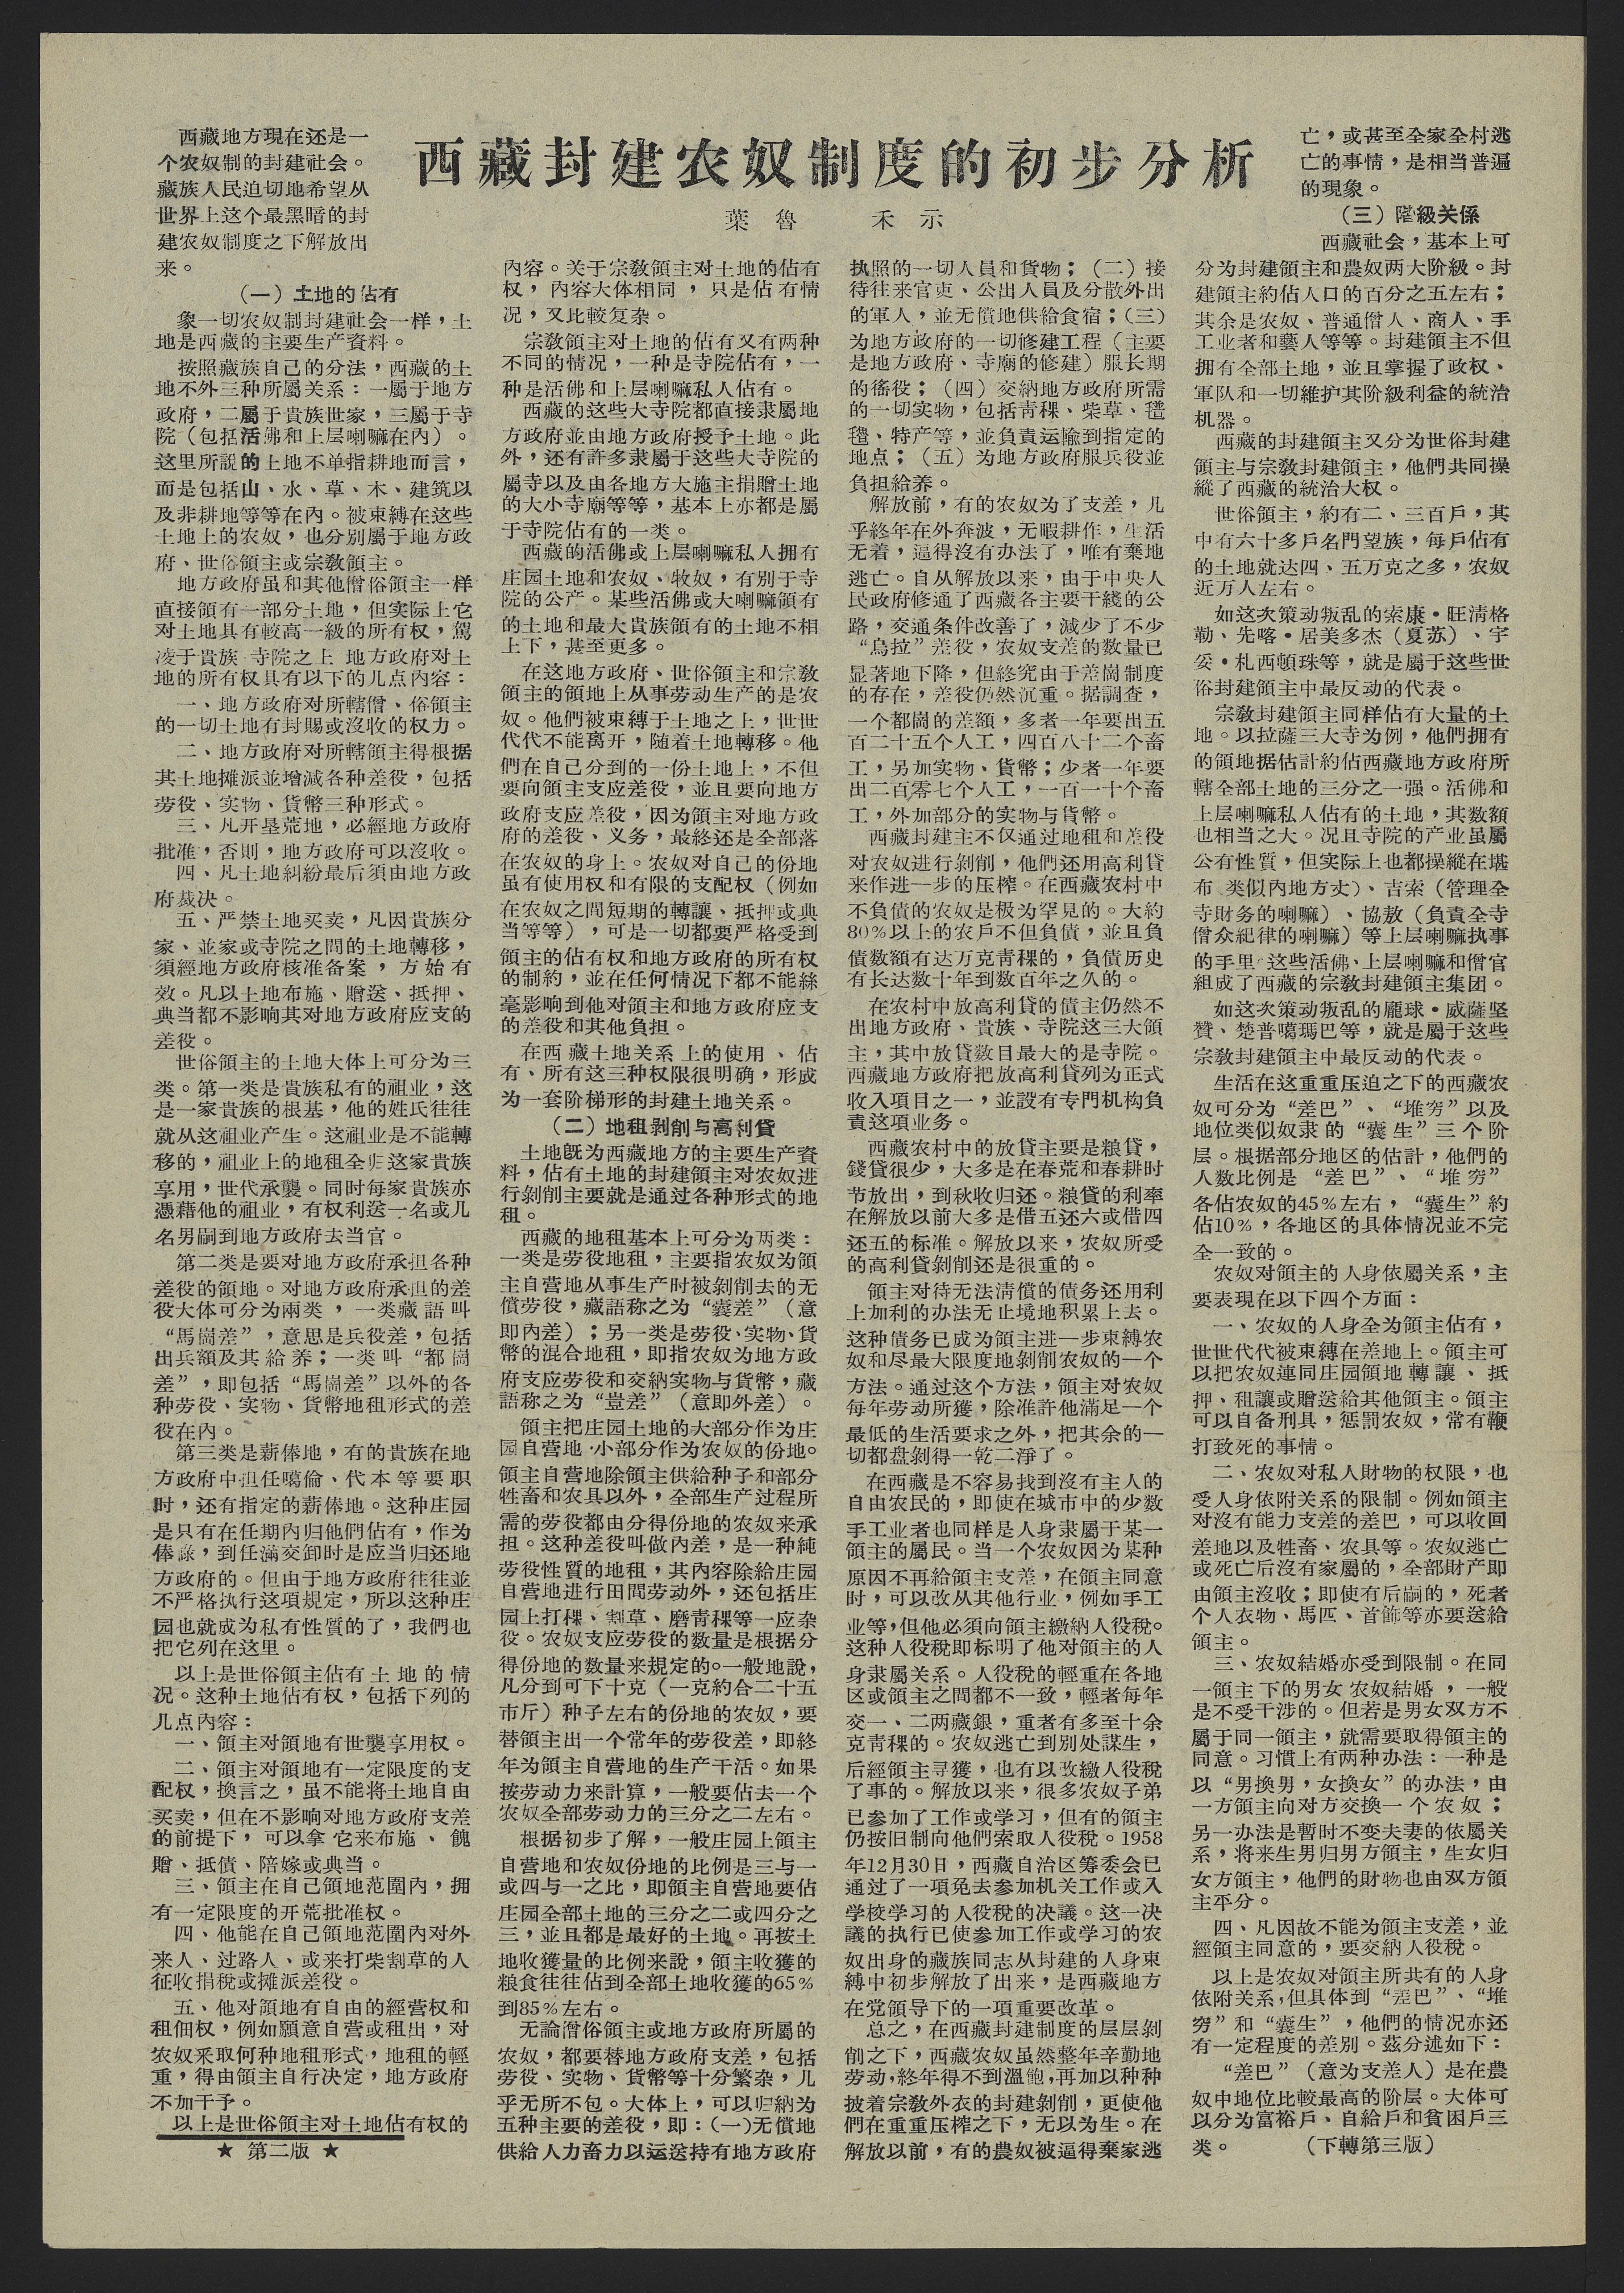西藏封建农奴制度的初步分析
葉魯 禾示
西藏地方現在还是一
个农奴制的封建社会。
藏族人民破切地希望从
世界上这个最黑暗的封
建农奴制度之下解放出
来。
（一）土地的佔有
象一切农奴制封建社会一样，土
地是西藏的主要生产資料。
按照藏族自己的分法，西藏的土
地不外三种所屬关系：一屬于地方
政府，二屬于貴族世家，三屬于寺
院（包括活佛和上层喇嘛在内）。
这里所說的土地不单指耕地而言，
而是包括山、水、草、木、建筑以
及非耕地等等在内。被束縛在这些
土地上的农奴，也分别屬于地方政
府、世俗領主或宗敎領主。
地方政府虽和其他僧俗領主一样
直接領有一部分土地，但实际上它
对土地具有較高一級的所有权，駕
凌于貴族寺院之上地方政府对土
地的所有权具有以下的几点内容：
一、地方政府对所轄僧、俗領主
的一切土地有封賜或沒收的权力。
二、地方政府对所轄領主得根据
其土地摊派並增減各种差役，包括
劳役、实物、貨幣三种形式。
三、凡开垦荒地，必經地方政府
批准，否則，地方政府可以沒收。
四、凡土地糾紛最后須由地方政
府裁决。
五、严禁土地买卖，凡因貴族分
家、並家或寺院之間的土地轉移，
須經地方政府核准备案，方始有
效。凡以土地布施、贈送、抵押、
典当都不影响其对地方政府应支的
差役。
世俗領主的土地大体上可分为三
类。第一类是貴族私有的祖业，这
是一家貴族的根基，他的姓氏往往
就从这祖业产生。这祖业是不能轉
移的，祖业上的地租全归这家貴族
享用，世代承襲。同时每家貴族亦
憑藉他的祖业，有权利送一名或几
名男嗣到地方政府去当官。
第二类是要对地方政府承担各种
差役的領地。对地方政府承担的差
役大体可分为兩类，一类藏語叫
“馬崗差”，意思是兵役差，包括
出兵額及其給养；一类叫“都崗
差”，即包括“馬崗差”以外的各
种劳役、实物、貨幣地租形式的差
役在内。
第三类是薪俸地，有的貴族在地
方政府中担任噶倫、代本等要职
时，还有指定的薪俸地。这种庄园
是只有在任期内归他們佔有，作为
俸祿，到任滿交卸时是应当归还地
方政府的。但由于地方政府往往並
不严格执行这項規定，所以这种庄
园也就成为私有性質的了，我們也
把它列在这里。
以上是世俗領主佔有土地的情
况。这种土地佔有权，包括下列的
几点内容：
一、領主对領地有世襲享用权。
二、領主对領地有一定限度的支
配权，換言之，虽不能将土地自由
买卖，但在不影响对地方政府支差
的前提下，可以拿它来布施、餽
贈、抵債、陪嫁或典当。
三、領主在自己領地范圍內，拥
有一定限度的开荒批准权。
四、他能在自己領地圍內对外
来人、过路人、或来打柴割草的人
征收捐稅或摊派差役。
五、他对領地有自由的經营权和
租佃权，例如願意自营或租出，对
农奴采取何种地租形式，地租的輕
重，得由領主自行决定，地方政府
不加干予。
以上是世俗領主对土地佔有权的
★ 第二版 ★
内容。关于宗敎領主对土地的佔有
权，内容大体相同，只是佔有有情
况，又比較复杂。
宗敎領主对土地的佔有又有两种
不同的情况，一种是寺院佔有，一
种是活佛和上层喇嘛私人佔有。
西藏的这些大寺院都直接屬地
方政府並由地方政府授予土地。此
外，还有許多隶屬于这些大寺院的
屬寺以及由各地方大施主捐贈土地
的大小寺廟等等，基本上亦都是屬
于寺院佔有的一类。
西藏的活佛或上层喇嘛私人拥有
庄园土地和农奴、牧奴，有别于寺
院的共产。某些活佛或大喇嘛領有
的土地和最大貴族領有的土地不相
上下，甚至更多。
在这地方政府、世俗領主和宗敎
領主的領地上从事劳动生产的是农
奴。他們被束縛于土地之上，世世
代代不能离开，随着土地轉移。他
們在自己分到的一份土地上，不但
要向領主支应差役，並且要向地方
政府支应差役，因为領主对地方政
府的差役、义务，最終还是全部落
在农奴的身上。农奴对自己的份地
虽有使用权和有限的支配权（例如
在农奴之間短期的轉讓、抵押或典
当等等），可是一切都要严格受到
領主的佔有权和地方政府的所有权
的制約，並在任何情況下都不能絲
毫影响到他对領主和地方政府应支
的差役和其他負担。
在西藏土地关系上的使用、佔
由、所有这三种权限很明确，形成
为一套阶梯形的封建土地关系。
（二）地租剝削与高利貸
土地旣为西藏地方的主要生产資
料，佔有土地的封建領主对农奴进
行剝削主要就是通过各种形式的地
租。
西藏的地租基本上可分为两类：
一类是劳役地租，主要指农奴为領
主自营地从事生产时被剝削去的无
償劳役，藏語称之为“囊差”（意
即内差）；另一类是劳役、实物、貨
幣的混合地租，即指农奴为地方政
府支应劳役和交納实物与貨幣，藏
語称之为“豈差”（意即外差）。
領主把庄园土地的大部分作为庄
园自营地，小部分作为农奴的份地。
領主自营地除領主供給种子和部分
牲畜和农具以外，全部生产过程所
需的劳役都由分得份地的农奴来承
担。这种差役叫做内差，是一种純
劳役性質的地租，其内容除給庄园
自营地进行田間劳动外，还包括庄
园上打稞、割草、磨靑稞等一应杂
役。农奴支应劳役的数量是根据分
得份地的数量来規定的。一般地說，
凡分到可下十克（一克約合二十五
市斤）种子左右的份地的农奴，要
替領主出一个常年的劳役差，即終
年为領主自营地的生产干活。如果
按劳动力来計算，一般要佔去一个
农奴全部劳动力的三分之二左右。
根据初步了解，一般庄园上領主
自营地和农奴份地的比例是三与一
或四与一之比，即領主自营地要佔
庄园全部土地的三分之二或四分之
三，並且都是最好的土地。再按土
地收穫量的比例来說，領主收穫的
粮食往往佔到全部土地收穫的65％
到85％左右。
無論僧俗領主或地方政府所屬的
农奴，都要替地方政府支差，包括
劳役、实物、貨幣等十分繁杂，几
乎无所不包。大体上，可以归納为
五种主要的差役，即：（一）无償地
供給人力畜力一运送持有地方政府
执照的一切人員和貨物；（二）接
待往来官吏、公出人員及分散外出
的軍人，並无償地供給食宿；（三）
为地方政府的一切修建工程（主要
是地方政府、寺廟的修建）服长期
的徭役；（四）交納地方政府所需
的一切实物，包括靑稞、柴草、氆
氌、特产等，並負責运輸到指定的
地点；（五）为地方政府服兵役並
負担給养。
解放前，有的农奴为了支差，几
乎終年在外奔波，无暇耕作，生活
无着，逼得沒有办法了，唯有棄地
逃亡。自从解放以来，由于中央人
民政府修通了西藏各主要干綫的公
路，交通条件改善了，減少了不少
“烏拉”差役，农奴支差的数量已
显著地下降，但終究由于差崗制度
的存在，差役仍然沉重。据調查，
一个都崗的差額，多者一年要出五
百二十五个人工，四百八十二个畜
工，另加实物、貨幣；少者一年要
出二百零七个人工，一百一十个畜
工，外加部分的实物与貨幣。
西藏封建主不仅通过地租和差役
对农奴进行剝削，他們还用高利貸
来作进一步地压榨。在西藏农村中
不負債的农奴是极为罕見的。大約
80％以上的农户不但負債，並且負
債数額有达万克靑稞的，負債历史
有长达数十年到数百年之久的。
在农村中放高利貸的債主仍然不
出地方政府、貴族、寺院这三大領
主，其中放貸数目最大的是寺院。
西藏地方政府把放高利貸列为正式
收入項目之一，並設有專門机构負
責这項业务。
西藏农村中的放貸主要是粮貸，
錢貸很少，大多是在春荒和春耕时
节放出，到秋收归还。粮貸的利率
在解放以前大多是借五还六或借四
还五的标准。解放以来，农奴所受
的高利貸剝削还是很重的。
領主对待无法清償的債务还用利
上加利的办法无止境地积累上去。
这种債务已成为領主进一步束縛农
奴和尽最大限度地剝削农奴的一个
方法。通过这个方法，領主对农奴
每年劳动所獲，除准許他滿足一个
最低的生活要求之外，把其余的一
切都盘剝得一乾二淨了。
在西藏是不容易找到沒有主人的
自由农民的，即使在城市中的少数
手工业者也同样是人身隶屬于某一
領主的屬民。当一个农奴因为某种
原因不再給領主支差，在領主同意
时，可以改从其他行业，例如手工
业等，但他必須向領主繳納人役稅。
这种人役稅即标明了他对領主的人
身隶屬关系。人役稅的輕重在各地
区或領主之間都不一致，輕者每年
交一、二两藏銀，重者有多至十余
克靑稞的。农奴逃亡到别处謀生，
后經領主寻獲，也有以改繳人役稅
了事的。解放以来，很多农奴子弟
已参加了工作或学习，但有的領主
仍按旧制向他們索取人役稅。1958
年12月30日，西藏自治区筹委会已
通过了一項免去参加机关工作或入
学校学习的人役稅的决議。这一决
議的执行已使参加工作或学习的农
奴出身的藏族同志从封建的人身束
縛中初步解放了出来，是西藏地方
在党領导下的一項重要改革。
总支，在西藏封建制度的层层剝
削之下，西藏农奴虽然整年辛勤地
劳动，終年得不到溫飽，再加以种种
披着宗敎外衣的封建剝削，更使他
們在重重压榨之下，无以为生。在
解放以前，有的農奴被逼得棄家逃
亡，或甚至全家全村逃
亡的事情，是相当普遍
的現象。
（三）階級关係
西藏社会，基本上可
分为封建領主和農奴兩大阶級。封
建領主約佔人口的百分之五左右；
其余是农奴、普通僧人、商人、手
工业者和藝人等等。封建領主不但
拥有全部土地，並且掌握了政权、
軍队和一切維护其阶級利益的統治
机器。
西藏的封建領主又分为世俗封建
領主与宗敎封建領主，他們共同操
縱了西藏的統治大权。
世俗領主，約有二、三百戶，其
中有六十多戶名門望族，每戶佔有
的土地就达四、五万克之多，农奴
近万人左右。
如这次策动叛乱的索康・旺清格
勒、先喀・居美多杰（夏）、宇
妥・札西頓珠等，就是屬于这些世
俗封建領主中最反动的代表。
宗敎封建領主同样佔有大量的土
地。以拉薩三大寺为例，他們拥有
的領地据估計約佔西藏地方政府所
轄全部土地的三分之一强。活佛和
上层喇嘛私人佔有的土地，其数額
也相当之大。况且寺院的产业虽屬
公有性質，但实际上也都操縱在堪
布、类似内地方丈）、吉索（管理全
寺財务的喇嘛）、協敖（負責全寺
僧众紀律的喇嘛）等上层喇嘛执事
的手里。这些活佛、上层喇嘛和僧官
組成了西藏的宗敎封建領主集团。
如这次策动叛乱的龐球・威薩坚
贊、楚普噶瑪巴等，就是屬于这些
宗敎封建領主中最反动的代表。
生活在这重重压迫之下的西藏农
奴可分为“差巴”、“堆穷”以及
地位类似奴隶的“囊生”三个阶
层。根据部分地区的估計，他們的
人数比例是“差巴”、“堆穷”
各佔农奴的45％左右，“囊生”約
佔10％，各地区的具体情况並不完
全一致的。
农奴对領主的人身依屬关系，主
要表現在以下四各方面：
一、农奴的人身全为領主佔有，
世世代代被束縛在差地上。領主可
以把农奴連同庄园領地轉讓、抵
押、租讓或贈送給其他領主。領主
可以自备刑具，惩罰农奴，常有鞭
打致死的事情。
二、农奴对私人財物的权限，也
受人身依附关系的限制。例如領主
对沒有能力支差的差巴，可以收回
差地以及牲畜、农具等。农奴逃亡
或死亡后沒有家屬的，全部財产即
由領主沒收；即使有后嗣的，死者
个人衣物、馬匹、首飾等亦要送給
領主。
三、农奴結婚亦受到限制。在同
一領主下的男女农奴結婚，一般
是不受干涉的。但若是男女双方不
屬于同一領主，就需要取得領主的
同意。习慣上有两种办法：一种是
以“男換男，女換女”的办法，由
一方領主向对方交換一个农奴；
另一办法是暫時不变夫妻的依屬关
系，将来生男归男方領主，生女归
女方領主，他們的財物也由双方領
主平分。
四、凡因故不能为領主支差，並
經領主同意的，要交納人役稅。
以上是农奴对領主所共有的人身
依附关系，但具体到“差巴”、“堆
穷”和“囊生”，他們的情况亦还
有一定程度的差别。兹分述如下：
“差巴”（以为支差人）是在農
奴中地位比較最高的阶层。大体可
以分为富裕戶、自給戶和貧困戶三
类。
（下轉第三版）
